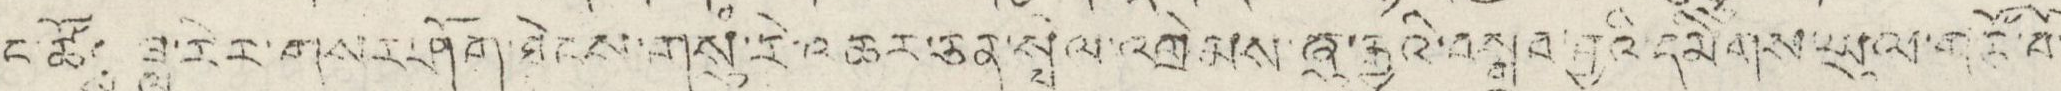ང་ཚོས་ཟླ་རེར་གསར་ཤོག་ཐེངས་གསུཾ་རེ་འཆར་ཅན་སྤེལ་འགྲེམས་ཞུ་རྒྱུའི་བསྒྲུབ་བྱའི་དམིགས་ཡུལ་གཙོ་བོ་
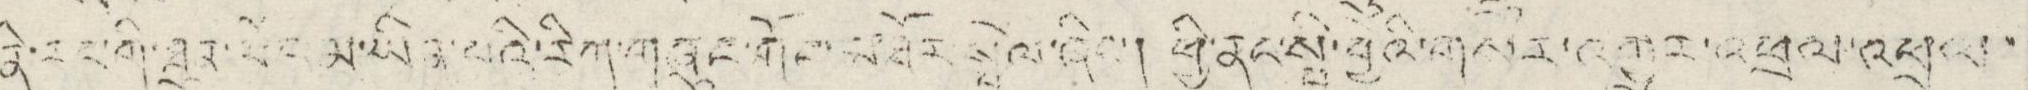ནི་རང་གི་ཐུན་མོང་མ་ཡིན་པའི་རིག་གཞུང་གོང་མཐོར སྤེལ་ཞིང་། ཕྱི་ནང་སྤྱི་ཕྱིའི་གསར་འགྱུར་འཕྲལ་འཕྲས་
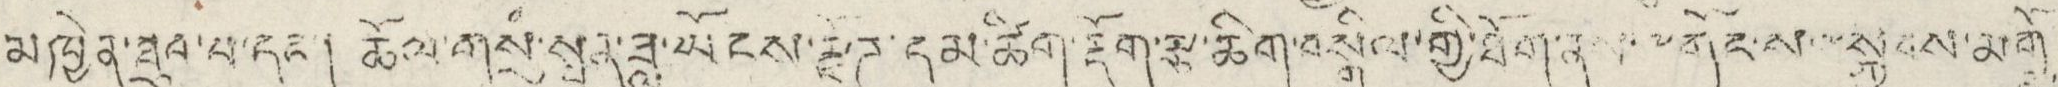མཁྱེན་ཐུབ་པ་དང་། ཆོལ་གསུཾ་སྤུན་ཟླ་ཡོངས་རྫོཊ་དམ་ཚིག་རྡོག་རྩ་ཆིག་བསྒྲིལ་གྱི་ཐོག་ནས་༸གོང་ས་སྐྱབས་མགོ
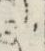ན་
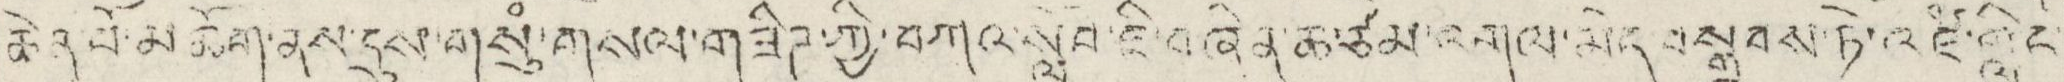ཆེན་པོ་མཆོག་ནས་དུས་གསུཾ་གསལ་གཟིཊ་ཀྱི་བཀའ་སློབ་ཇི་བཞིན་ཆ་ཙམ་འགལ་མེད་བསྒྲུབས་ཏེ་འཛཾ་གླིང་
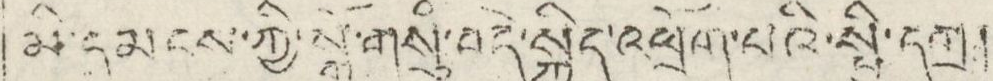མི་དམངས་ཀྱི་སྒོ་གསུཾ་བདེ་སྐྱིད་འཕྲོག་པའི་སྤྱི་དགྲ།
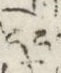དང་
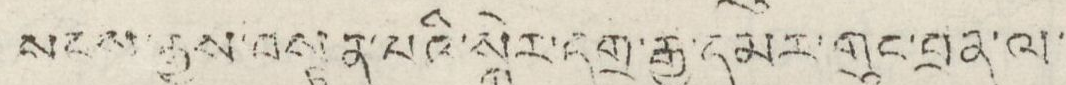སངས་རྒྱས་བསྟན་པའི་སྐོར་དགྲ་རྒྱ་དམར་གུང་བྲན་ལ་
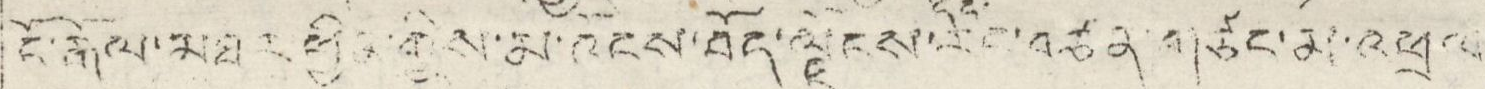ངོ་རྒོལ་མཐར ཕྱིན་གྱིས་མ་འོངས་བོད་ལྗོངས་རང་བཙན་གཙང་མ་འཕྲལ་
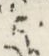དུ་
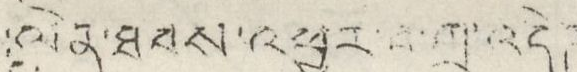ལེན་ཐབས་འཕྱར་བ་གྲུ་འདེཊ་
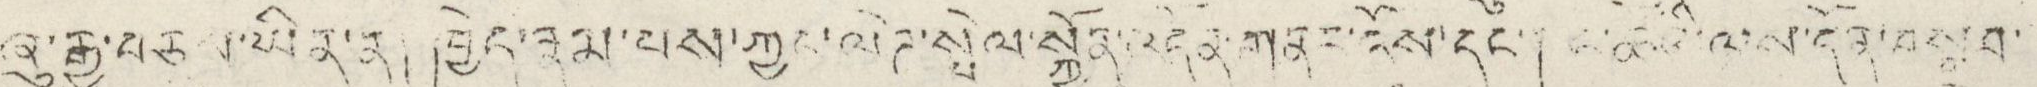ཞུ་རྒྱུ་བཅས་ཡིན་ན། ཁྱེད་རྣམ་པས་ཀྱང་ལེཊ་སྤེལ་སྐྱོན་འདེན་གནང་རོགས་འོས་དང་། ང་ཚོའི་ལས་དོན་བསྒྲུབ་
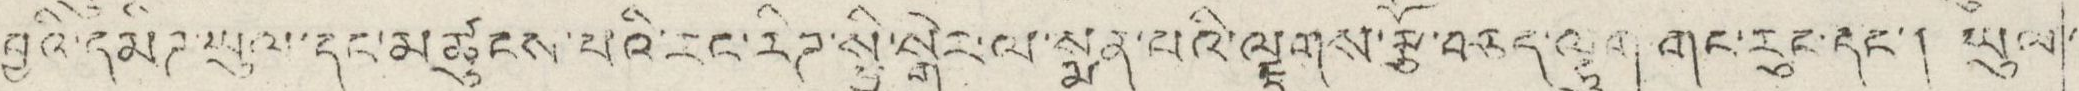བྱའི་དམིཊ་ཡུལ་དང་མཚུངས་པའི་རང་རིཊ་སྤྱི་སྒེར་ལ་སྨན་པའི་ལྗགས་རྩོ་བཅད་ལྟུག་གང་རུང་དང་། ཡུལ་
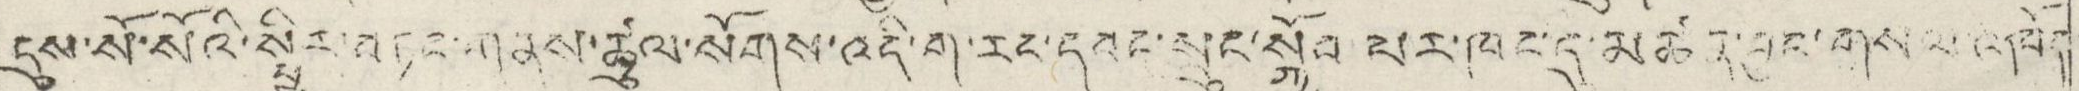དུས་སོ་སོའི་སྤྱིར་བཏང་གནས་ཚུལ་སོགས་འདི་ག་རང་དབང་སྲུང་སྐྱོབ་པར་ཁང་དུ་མཚན་བྱང་གསལ་འཁོད་
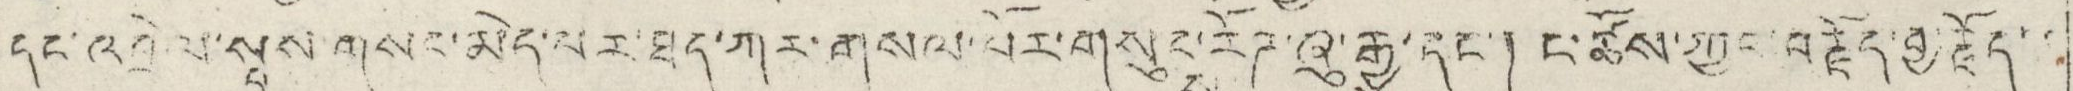དང་འབྲེལ་སྤས་གསང་མེད་པར་ཐད་ཀར་གསལ་པོར་གསུངྶ་རོཊ་ཞུ་རྒྱུ་དང་། ང་ཚོས་ཀྱང་བརྗོད་བྱ་རྗོད་་
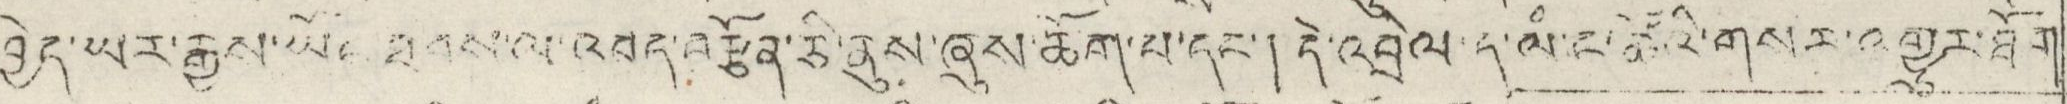བྱེད་ཡར་རྒྱས་ཡོང་ཐབས་ལ་འབད་བརྩོན་ཅི་ནུས་ཞུས་ཆོག་པ་དང་། དེ་འབྲེལ་ས་ལཾ་ང་ཚོའི་གསར་འགྱུར་ཐོག་
